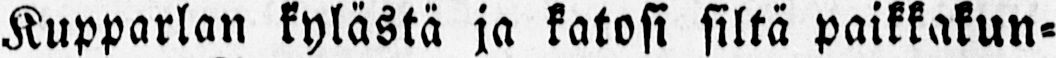Kupparlan kylästä ja katosi siltä paikkakun-
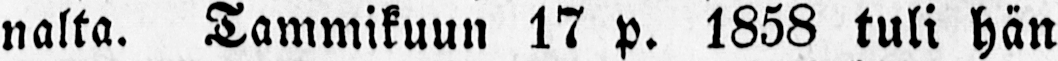nalta. Tammikuun 17 p. 1858 tuli hän
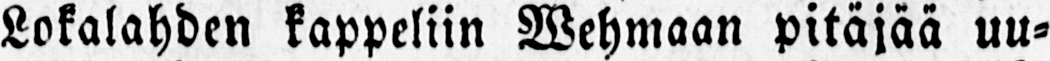Lokalahden kappeliin Wehmaan pitäjää uu-
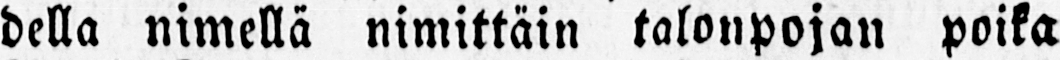della nimellä nimittäin talonpojan poika
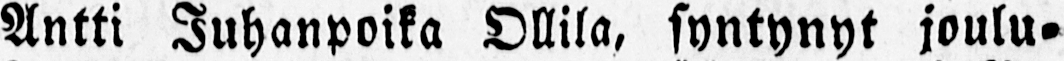Antti Juhanpoika Ollila, syntynyt joulu-
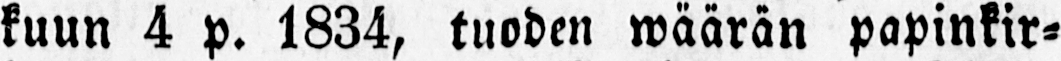kuun 4 p. 1834, tuoden wäärän papinkir-
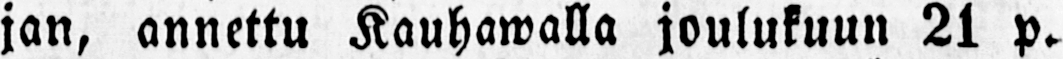jan, annettu Kauhawalla joulukuun 21 p.
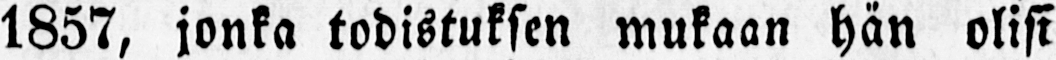1857, jonka todistuksen mukaan hän olisi
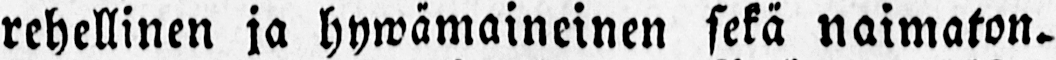rehellinen ja hywämaineinen sekä naimaton.
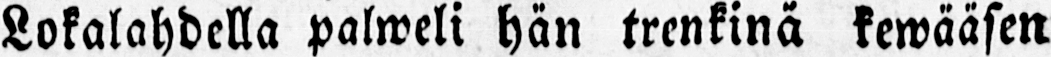Lokalahdella palweli hän trenkinä kewääsen
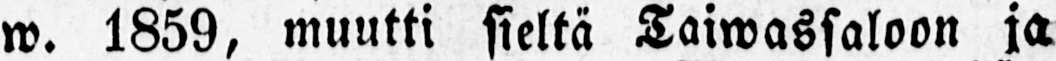w. 1859, muutti sieltä Taiwassaloon ja
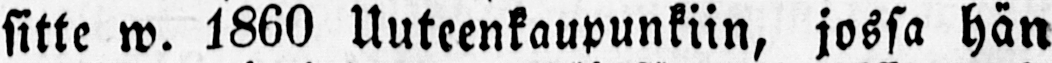sitte w. 1860 Uuteenkaupunkiin, jossa hän
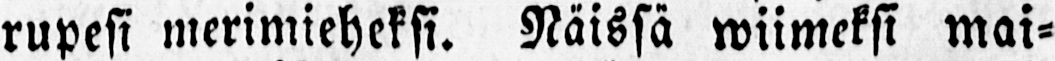rupesi merimieheksi. Näissä wiimeksi mai-
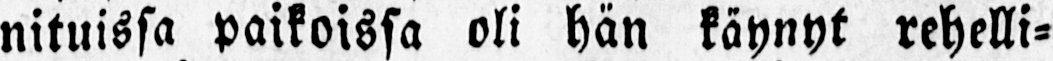nituissa paikoissa oli hän käynyt rehelli-
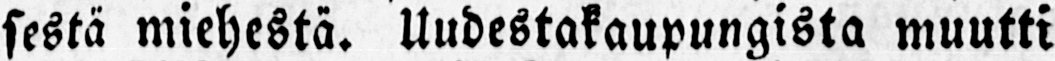sestä miehestä. Uudestakaupungista muutti
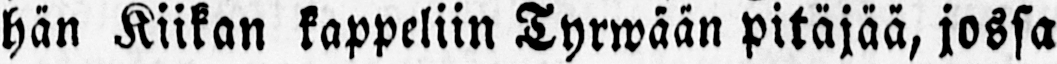hän Kiikan kappeliin Tyrwään pitäjää, jossa
